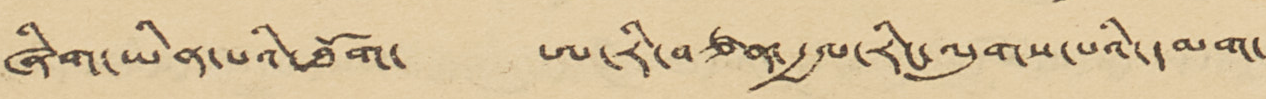ཞིག་ཡིན་པའི་ཐོག་ ཨ་རི་བཙན་རྒྱལ་རིང་ལུགས་པའི་དམག་
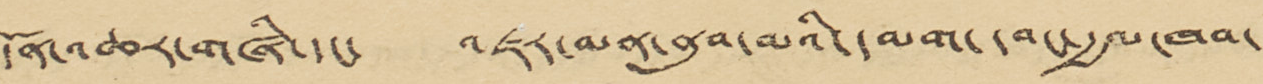དོན་འཆར་གཞི་དང་ འཇར་མན་ནུབ་མའི་དམག་དབང་རྒྱལ་ཁབ་
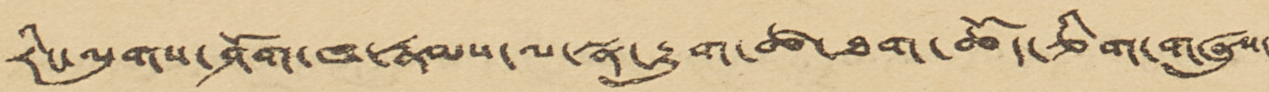རིང་ལུགས་ཤོག་ཁ་རྣམས་ལ་སྣ་རྒྱུག་ཚ་ཐག་ཆོད་ཅིག་གཞུས་
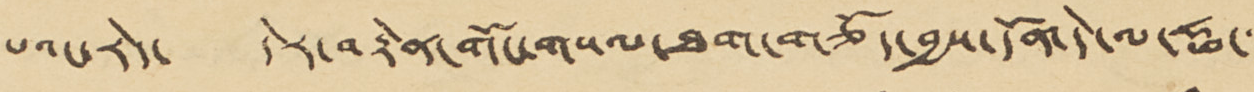པའང་རེད་ དེར་བརྟེན་གོང་གསལ་ཐག་གཅོད་བྱས་དོན་དེ་ལ་ཧྥ་་་
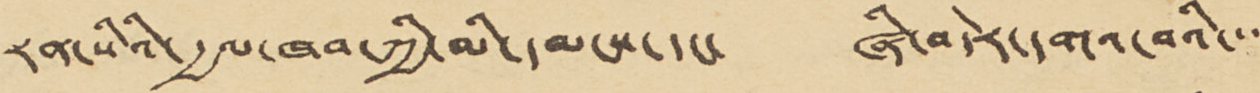རན་སིའི་རྒྱལ་ཁབ་ཀྱི་མི་དམངས་དང་ ཞི་བདེར་དགའ་བའི་་་་
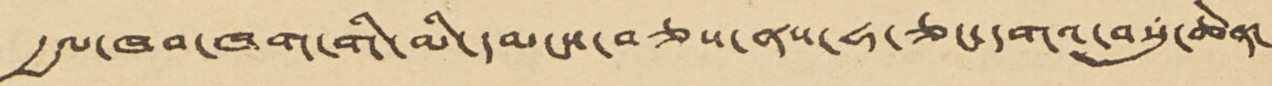རྒྱལ་ཁབ་ཁག་གི་མི་དམངས་བཅས་ནས་ཧ་ཅང་དགའ་བསུ་ཆེན་
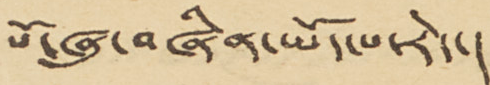པོ་ཞུ་བཞིན་ཡོད་པ་རེད་།
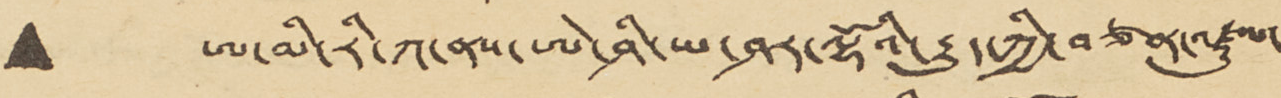• ཨ་མི་རི་ཀ་ནས་ཨེ་ཤི་ཡ་ཤར་ལྷོའི་རྒྱུད་ཀྱི་བཙན་འཛུལ་
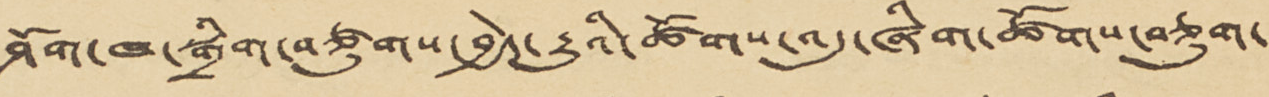ཤོག་ཁ་སྒྲིག་བཙུགས་བྱེད་རྒྱུའི་ཚོགས་འདུ་ཞིག་ཚོགས་བཅུག་
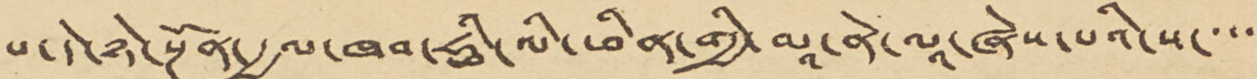པ་དེ་ཉེ་སྔོན་རྒྱལ་ཁབ་ཧྥི་ལི་ཕིན་གྱི་མཱ་ནེ་ལཱ་ཞེས་པའི་ས་་་་་
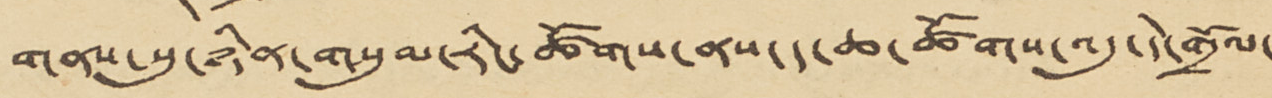གནས་སུ་ཉིན་གསུམ་རིང་ཚོགས་ནས་ད་ཆ་ཚོགས་འདུ་དེ་གྲོལ་
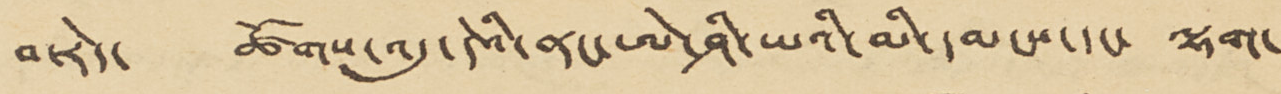བ་རེད་ ཚོགས་འདུ་དེའི་ནང་ཨེ་ཤི་ཡའི་མི་དམངས་དང་ ལྷག་
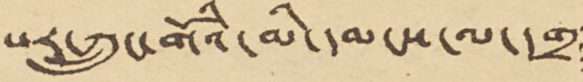པར་ཀྲུང་གོའི་མི་དམངས་ལ་དགྲ
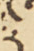ར
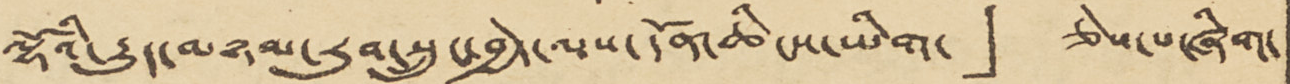ལྷོའི་རྒྱུད་མཉམ་རུབ་སྲུང་བྱེད་ལས་དོན་ཆིངས་ཡིག་」 ཅེས་པ་ཞིག་
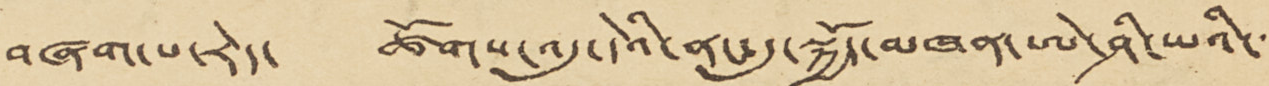བཞག་པ་རེད་ ཚོགས་འདུ་དེའི་ནང་དུ་སྐྱོད་མཁན་ཨེ་ཤེ་ཡའི་་་
